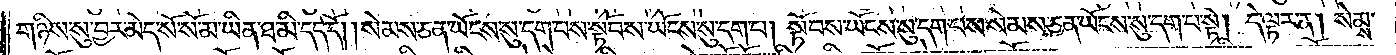གཉིས་སུ་བྱར་མེད་སོ་སོ་མ་ཡིན་ཐ་མི་དད་དོ། །སེམས་ཅན་ཡོངས་སུ་དག་པས་སྟོབས་ཡོངས་སུ་དག་པ། སྟོབས་ཡོངས་སུ་དག་པས་སེམས་ཅན་ཡོངས་སུ་དག་པ་སྟེ། དེ་ལྟར་ན། སེམས་
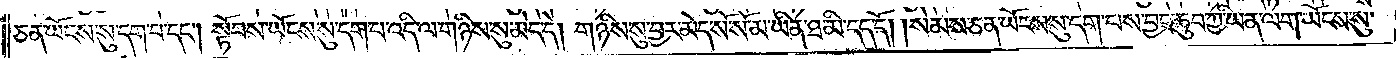ཅན་ཡོངས་སུ་དག་པ་དང༌། སྟོབས་ཡོངས་སུ་དག་པ་འདི་ལ་གཉིས་སུ་མེད་དེ། གཉིས་སུ་བྱར་མེད་སོ་སོ་མ་ཡིན་པ་ཐ་མི་དད་དོ། །སེམས་ཅན་ཡོངས་སུ་དག་པས་བྱང་ཆུབ་ཀྱི་ཡན་ལག་ཡོངས་སུ་
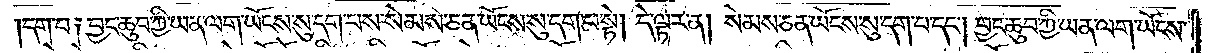དག་པ༑ བྱང་ཆུབ་ཀྱི་ཡན་ལག་ཡོངས་སུ་དག་པས་སེམས་ཅན་ཡོངས་སུ་དག་པ་སྟེ། དེ་ལྟར་ན། སེམས་ཅན་ཡོངས་སུ་དག་པ་དང༌། བྱང་ཆུབ་ཀྱི་ཡན་ལག་ཡོངས་
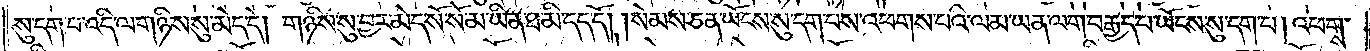སུ་དག་པ་འདི་ལ་གཉིས་སུ་མེད་དེ། གཉིས་སུ་བྱར་མེད་སོ་སོ་མ་ཡིན་ཐ་མི་དད་དོ། །སེམས་ཅན་ཡོངས་སུ་དག་པས་འཕགས་པའི་ལམ་ཡན་ལག་བརྒྱད་པ་ཡོངས་སུ་དག་པ། འཕགས་
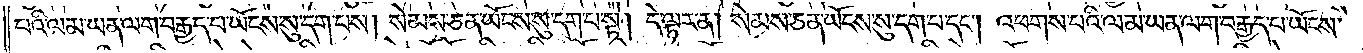པའི་ལམ་ཡན་ལག་བརྒྱད་པ་ཡོངས་སུ་དག་པས་སེམས་ཅན་ཡོངས་སུ་དག་པ་སྟེ། དེ་ལྟར་ན། སེམས་ཅན་ཡོངས་སུ་དག་པ་དང༌། འཕགས་པའི་ལམ་ཡན་ལག་བརྒྱད་པ་ཡོངས་
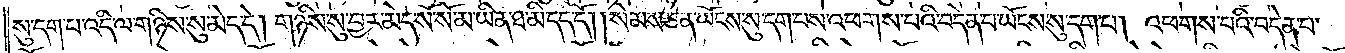སུ་དག་པ་འདི་ལ་གཉིས་སུ་མེད་དེ། གཉིས་སུ་བྱར་མེད་སོ་སོ་མ་ཡིན་ཐ་མི་དད་དོ། །སེམས་ཅན་ཡོངས་སུ་དག་པས་འཕགས་པའི་བདེན་པ་ཡོངས་སུ་དག་པ། འཕགས་པའི་བདེན་པ་
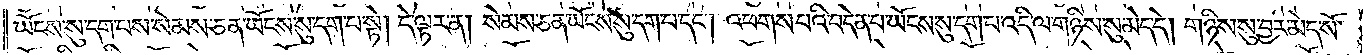ཡོངས་སུ་དག་པས་སེམས་ཅན་ཡོངས་སུ་དག་པ་སྟེ། དེ་ལྟར་ན། སེམས་ཅན་ཡོངས་སུ་དག་པ་དང༌། འཕགས་པའི་བདེན་པ་ཡོངས་སུ་དག་པ་འདི་ལ་གཉིས་སུ་མེད་དེ། གཉིས་སུ་བྱར་མེད་སོ་
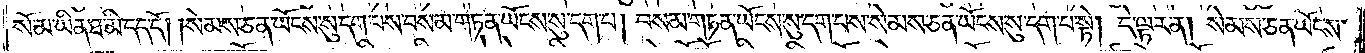སོ་མ་ཡིན་ཐ་མི་དད་དོ། །སེམས་ཅན་ཡོངས་སུ་དག་པས་བསམ་གཏན་ཡོངས་སུ་དག་པ། བསམ་གཏན་ཡོངས་སུ་དག་པས་སེམས་ཅན་ཡོངས་སུ་དག་པ་སྟེ། དེ་ལྟར་ན། སེམས་ཅན་ཡོངས་
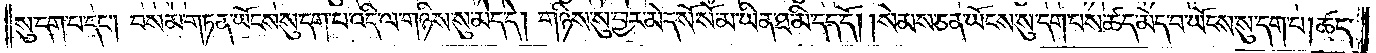སུ་དག་པ་དང༌། བསམ་གཏན་ཡོངས་སུ་དག་པ་འདི་ལ་གཉིས་སུ་མེད་དེ། གཉིས་སུ་བྱར་མེད་སོ་སོ་མ་ཡིན་ཐ་མི་དད་དོ། །སེམས་ཅན་ཡོངས་སུ་དག་པས་ཚད་མེད་པ་ཡོངས་སུ་དག་པ། ཚད་
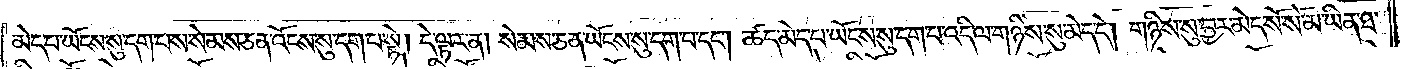མེད་པ་ཡོངས་སུ་དག་པས་སེམས་ཅན་ཡོངས་སུ་དག་པ་སྟེ། དེ་ལྟར་ན། སེམས་ཅན་ཡོངས་སུ་དག་པ་དང༌། ཚད་མེད་པ་ཡོངས་སུ་དག་པ་འདི་ལ་གཉིས་སུ་མེད་དེ། གཉིས་སུ་བྱར་མེད་སོ་སོ་མ་ཡིན་ཐ་
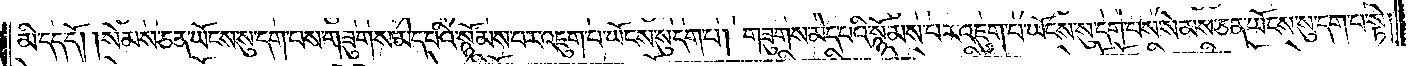མི་དད་དོ། །སེམས་ཅན་ཡོངས་སུ་དག་པས་གཟུགས་མེད་པའི་སྙོམས་པར་འཇུག་པ་ཡོངས་སུ་དག་པ། གཟུགས་མེད་པའི་སྙོམས་པར་འཇུག་པ་ཡོངས་སུ་དག་པས་སེམས་ཅན་ཡོངས་སུ་དག་པ་སྟེ།
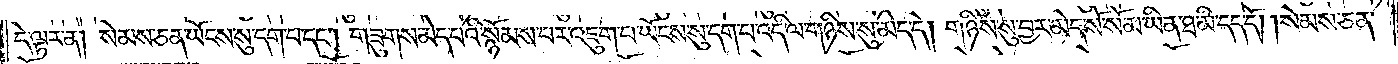དེ་ལྟར་ན། སེམས་ཅན་ཡོངས་སུ་དག་པ་དང༌། གཟུགས་མེད་པའི་སྙོམས་པར་འཇུག་པ་ཡོངས་སུ་དག་པ་འདི་ལ་གཉིས་སུ་མེད་དེ། གཉིས་སུ་བྱར་མེད་སོ་སོ་མ་ཡིན་ཐ་མི་དད་དོ། །སེམས་ཅན་
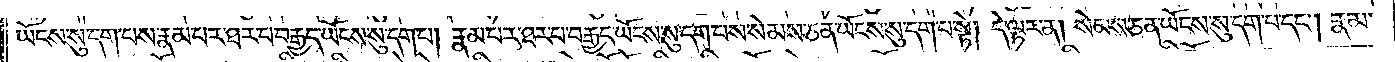ཡོངས་སུ་དག་པས་རྣམ་པར་ཐར་པ་བརྒྱད་ཡོངས་སུ་དག་པ། རྣམ་པར་ཐར་པ་བརྒྱད་ཡོངས་སུ་དག་པས་སེམས་ཅན་ཡོངས་སུ་དག་པ་སྟེ། དེ་ལྟར་ན། སེམས་ཅན་ཡོངས་སུ་དག་པ་དང༌། རྣམ་
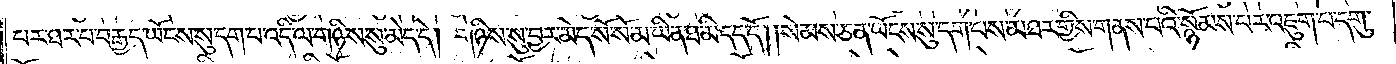པར་ཐར་པ་བརྒྱད་ཡོངས་སུ་དག་པ་འདི་ལ་གཉིས་སུ་མེད་དེ། གཉིས་སུ་བྱར་མེད་སོ་སོ་མ་ཡིན་ཐ་མི་དད་དོ། །སེམས་ཅན་ཡོངས་སུ་དག་པས་མཐར་གྱིས་གནས་པའི་སྙོམས་པར་འཇུག་པ་དགུ་
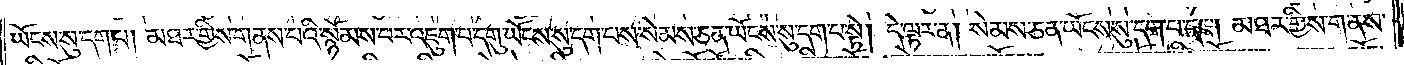ཡོངས་སུ་དག་པ། མཐར་གྱིས་གནས་པའི་སྙོམས་པར་འཇུག་པ་དགུ་ཡོངས་སུ་དག་པས་སེམས་ཅན་ཡོངས་སུ་དག་པ་སྟེ། དེ་ལྟར་ན། སེམས་ཅན་ཡོངས་སུ་དག་པ་དང༌། མཐར་གྱིས་གནས་
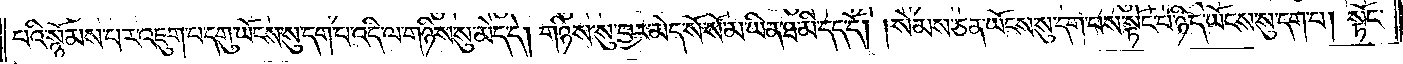པའི་སྙོམས་པར་འཇུག་པ་དགུ་ཡོངས་སུ་དག་པ་འདི་ལ་གཉིས་སུ་མེད་དེ། གཉིས་སུ་བྱར་མེད་སོ་སོ་མ་ཡིན་ཐ་མི་དད་དོ། །སེམས་ཅན་ཡོངས་སུ་དག་པས་སྟོང་པ་ཉིད་ཡོངས་སུ་དག་པ། སྟོང་
